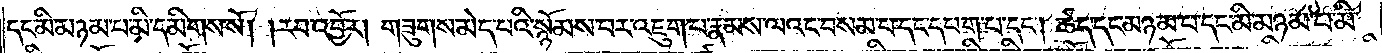དང་མི་མཉམ་པ་མི་དམིགས་སོ། །རབ་འབྱོར། གཟུགས་མེད་པའི་སྙོམས་པར་འཇུག་པ་རྣམས་ལའང་བསམ་པ་དང་དཔག་པ་དང༌། ཚད་དང་མཉམ་པ་དང་མི་མཉམ་པ་མི་
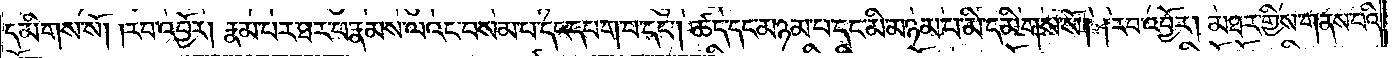དམིགས་སོ། །རབ་འབྱོར། རྣམ་པར་ཐར་པ་རྣམས་ལའང་བསམ་པ་དང་དཔག་པ་དང༌། ཚད་དང་མཉམ་པ་དང་མི་མཉམ་པ་མི་དམིགས་སོ། །རབ་འབྱོར། མཐར་གྱིས་གནས་པའི་
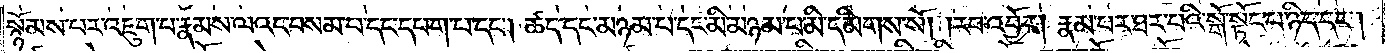སྙོམས་པར་འཇུག་པ་རྣམས་ལའང་བསམ་པ་དང་དཔག་པ་དང༌། ཚད་དང་མཉམ་པ་དང་མི་མཉམ་པ་མི་དམིགས་སོ། །རབ་འབྱོར། རྣམ་པར་ཐར་པའི་སྒོ་སྟོང་པ་ཉིད་དང༌།
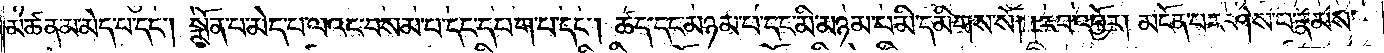མཚན་མ་མེད་པ་དང༌། སྨོན་པ་མེད་པ་ལའང་བསམ་པ་དང་དཔག་པ་དང༌། ཚད་དང་མཉམ་པ་དང་མི་མཉམ་པ་མི་དམིགས་སོ། །རབ་འབྱོར། མངོན་པར་ཤེས་པ་རྣམས་
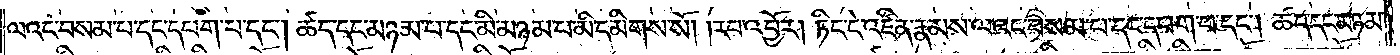ལའང་བསམ་པ་དང་དཔག་པ་དང༌། ཚད་དང་མཉམ་པ་དང་མི་མཉམ་པ་མི་དམིགས་སོ། །རབ་འབྱོར། ཏིང་ངེ་འཛིན་རྣམས་ལའང་བསམ་པ་དང་དཔག་པ་དང༌། ཚད་དང་མཉམ་
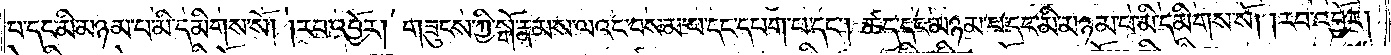པ་དང་མི་མཉམ་པ་མི་དམིགས་སོ། །རབ་འབྱོར། གཟུངས་ཀྱི་སྒོ་རྣམས་ལའང་བསམ་པ་དང་དཔག་པ་དང༌། ཚད་དང་མཉམ་པ་དང་མི་མཉམ་པ་མི་དམིགས་སོ། །རབ་འབྱོར།
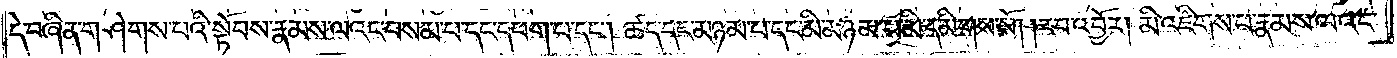དེ་བཞིན་གཤེགས་པའི་སྟོབས་རྣམས་ལའང་བསམ་པ་དང་དཔག་པ་དང༌། ཚད་དང་མཉམ་པ་དང་མི་མཉམ་པ་མི་དམིགས་སོ། །རབ་འབྱོར། མི་འཇིགས་པ་རྣམས་ལའང་
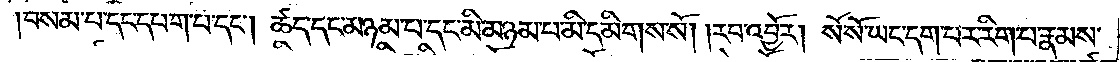བསམ་པ་དང་དཔག་པ་དང༌། ཚད་དང་མཉམ་པ་དང་མི་མཉམ་པ་མི་དམིགས་སོ། །རབ་འབྱོར། སོ་སོ་ཡང་དག་པར་རིག་པ་རྣམས་
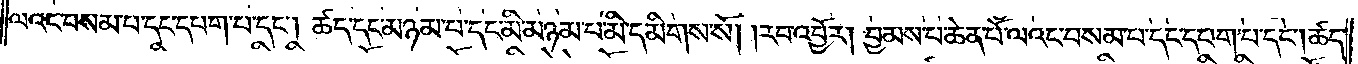ལའང་བསམ་པ་དང་དཔག་པ་དང༌། ཚད་དང་མཉམ་པ་དང་མི་མཉམ་པ་མི་དམིགས་སོ། །རབ་འབྱོར། བྱམས་པ་ཆེན་པོ་ལའང་བསམ་པ་དང་དཔག་པ་དང༌། ཚད་
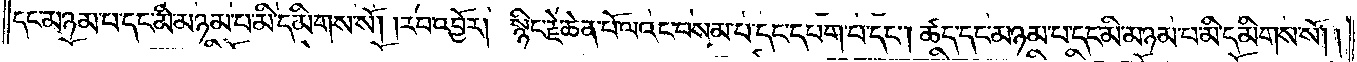དང་མཉམ་པ་དང་མི་མཉམ་པ་མི་དམིགས་སོ། །རབ་འབྱོར། སྙིང་རྗེ་ཆེན་པོ་ལའང་བསམ་པ་དང་དཔག་པ་དང༌། ཚད་དང་མཉམ་པ་དང་མི་མཉམ་པ་མི་དམིགས་སོ། །
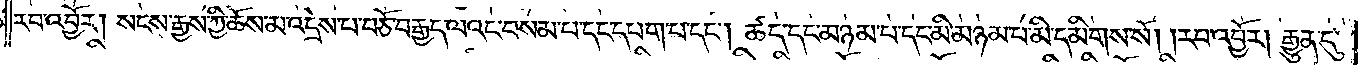རབ་འབྱོར། སངས་རྒྱས་ཀྱི་ཆོས་མ་འདྲེས་པ་བཅོ་བརྒྱད་ལའང་བསམ་པ་དང་དཔག་པ་དང༌། ཚད་དང་མཉམ་པ་དང་མི་མཉམ་པ་མི་དམིགས་སོ། །རབ་འབྱོར། རྒྱུན་དུ་
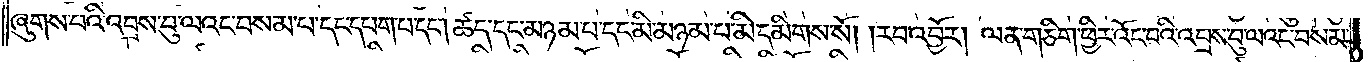ཞུགས་པའི་འབྲས་བུ་ལའང་བསམ་པ་དང་དཔག་པ་དང༌། ཚད་དང་མཉམ་པ་དང་མི་མཉམ་པ་མི་དམིགས་སོ། །རབ་འབྱོར། ལན་གཅིག་ཕྱིར་འོང་བའི་འབྲས་བུ་ལའང་བསམ་
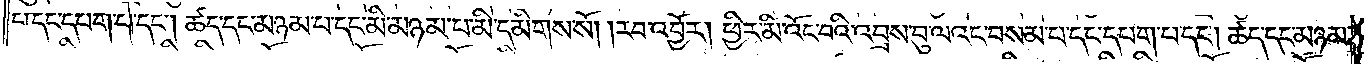པ་དང་དཔག་པ་དང༌། ཚད་དང་མཉམ་པ་དང་མི་མཉམ་པ་མི་དམིགས་སོ། །རབ་འབྱོར། ཕྱིར་མི་འོང་བའི་འབྲས་བུ་ལའང་བསམ་པ་དང་དཔག་པ་དང༌། ཚད་དང་མཉམ་
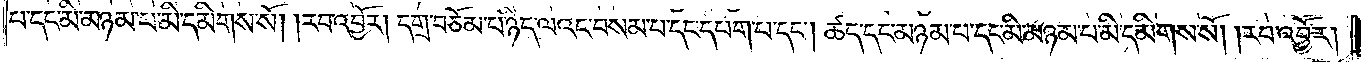པ་དང་མི་མཉམ་པ་མི་དམིགས་སོ། །རབ་འབྱོར། དགྲ་བཅོམ་པ་ཉིད་ལའང་བསམ་པ་དང་དཔག་པ་དང༌། ཚད་དང་མཉམ་པ་དང་མི་མཉམ་པ་མི་དམིགས་སོ། །རབ་འབྱོར།
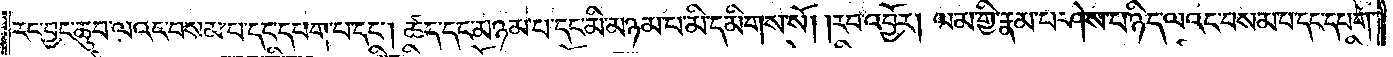རང་བྱང་ཆུབ་ལའང་བསམ་པ་དང་དཔག་པ་དང༌། ཚད་དང་མཉམ་པ་དང་མི་མཉམ་པ་མི་དམིགས་སོ། །རབ་འབྱོར། ལམ་གྱི་རྣམ་པར་ཤེས་པ་ཉིད་ལའང་བསམ་པ་དང་དཔག་
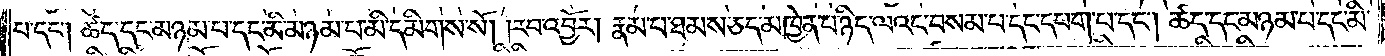པ་དང༌། ཚད་དང་མཉམ་པ་དང་མི་མཉམ་པ་མི་དམིགས་སོ། །རབ་འབྱོར། རྣམ་པ་ཐམས་ཅད་མཁྱེན་པ་ཉིད་ལའང་བསམ་པ་དང་དཔག་པ་དང༌། ཚད་དང་མཉམ་པ་དང་མི་
